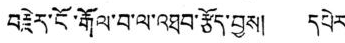བརྗེར་ངོ་རྒོལ་བ་ལ་འཐབ་རྩོད་བྱས། དཔེར་
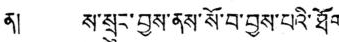ན། ས་སྲུང་བྱས་ནས་སོ་བ་བྱས་པའི་ཐོག་
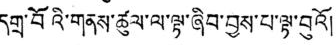དགྲ་བོའི་གནས་ཚུལ་ལ་ལྟ་ཞིབ་བྱས་པ་ལྟ་བུའོ༎
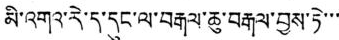མི་འགའ་རེ་ད་དུང་ལ་བརྒལ་ཆུ་བརྒལ་བྱས་ཏེ་་་་
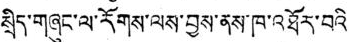སྲིད་གཞུང་ལ་རོགས་ལས་བྱས་ནས་ཁ་འཐོར་བའི
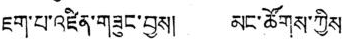ཇག་པ་འཛིན་གཟུང་བྱས། མང་ཚོགས་ཀྱིས་
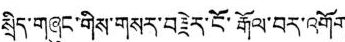སྲིད་གཞུང་གིས་གསར་བརྗེར་ངོ་རྒོལ་བར་འགོག
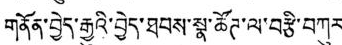གནོན་བྱེད་རྒྱུའི་བྱེད་ཐབས་སྣ་ཚོཊ་ལ་བརྩི་བཀུར་
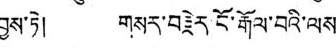བྱས་ཏེ། གསར་བརྗེར་ངོ་རྒོལ་བའི་ལས་
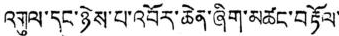འགུལ་དང་ཉེས་པ་འབོར་ཆེན་ཞིག་མཚང་བརྟོལ་་
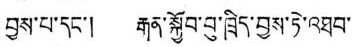བྱས་པ་དང་། རྒན་སྐྱོབ་བུ་ཁྲིད་བྱས་ཏེ་འཐབ་
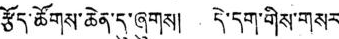རྩོད་ཚོགས་ཆེན་དུ་ཞུགས། དེ་དག་གིས་གསར་
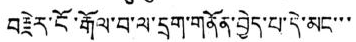བརྗེར་ངོ་རྒོལ་བ་ལ་དྲག་གནོན་བྱེད་པ་དེ་མང་་་
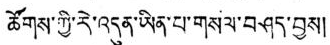ཚོགས་ཀྱི་རེ་འདུན་ཡིན་པ་གསལ་བཤད་བྱས།
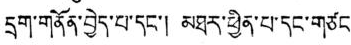དྲག་གནོན་བྱེད་པ་དང་། མཐར་ཕྱིན་པ་དང་གཙང
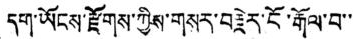དག་ཡོངས་རྫོགས་ཀྱིས་གསར་བརྗེར་ངོ་རྒོལ་བ་་
